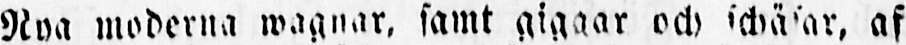Nya moderna wagnar, samt giggar och schäsar, af
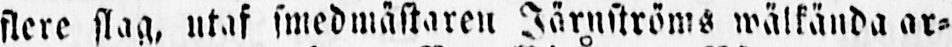flere slag, utaf smedmästaren Järnströms wälkända ar-
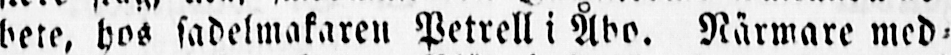bete, hos sadelmakaren Petrell i Åbo. Närmare med-
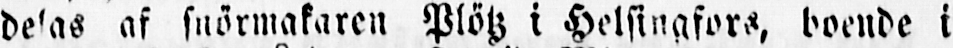delas af snörmakaren Plötz i Helsinqfors, boende i
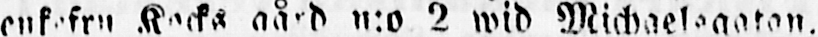enkefru Kocks gård n:o 2 wid Michaelsgatan.
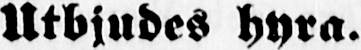Utbjudes hyra.
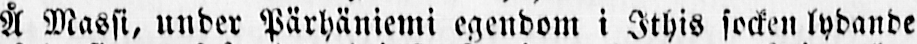Å Massi, under Pärhäniemi egendom i Ithis socken lydande
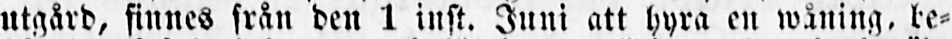utgård, finnes från den 1 inst. Juni att hyra en wåning, be-
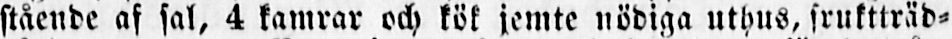stående af sal, 4 kamrar och kök jemte nödiga uthus, fruktträd-
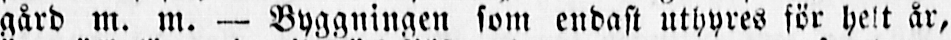gård m. m. — Byggningen som endast uthyres för helt år,
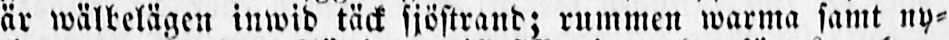är wälbelägen inwid täck sjöstrand; rummen warma samt ny-
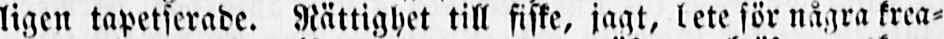ligen tapetserade. Rättighet till fiske, jagt, bete för några krea-
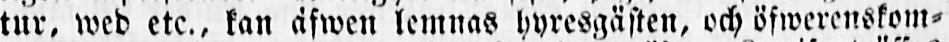tur, wed etc., kan äfwen lemnas hyresgästen, och öfwerenskom-
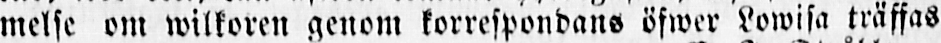melse om wilkoren genom korrespondans öfwer Lowisa träffas
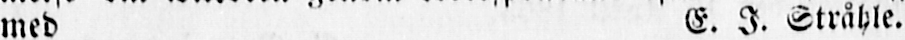med E. I. Stråhle.
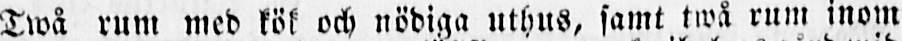Twå rum med kök och nödiga uthus, samt twå rum inom
